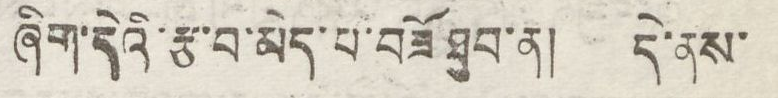ཞིག་དེའི་རྩ་བ་མེད་པ་བཟོ ཐུབ་ན། དེ་ནས་
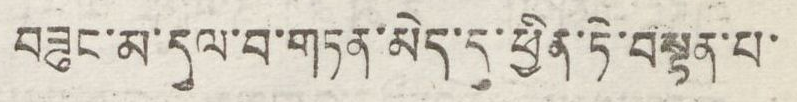བཟུང་མ་དུལ་བ་གཏན་མེད་དུ་ཕྱིན་ཏེ་བསྟན་པ་
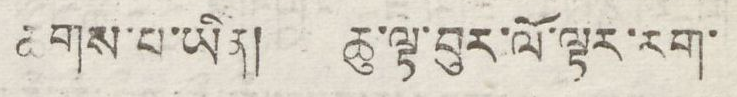ཆགས་པ་ཡིན། ཆུ་ལྟ་བུར་ལོ་ལྟར་རག་
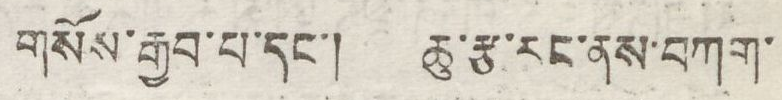གསོས་རྒྱབ་པ་དང་། ཆུ་རྩ་རང་ནས་བཀག་
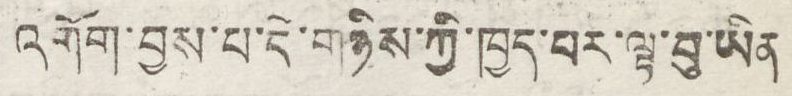འགོག་བྱས་པ་དེ་གཉིས་ཀྱི་ཁྱད་པར་ལྟ་བུ་ཡིན།
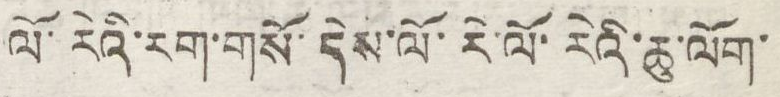ལོ་རེའི་རག་གསོ་དེས་ལོ་རེ་ལོ་རེའི་ཆུ་ལོག་
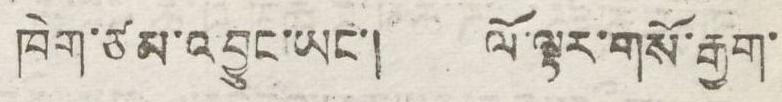ཁེག་ཙམ་འབྱུང་ཡང་། ལོ་ལྟར་གསོ་རྒྱག་
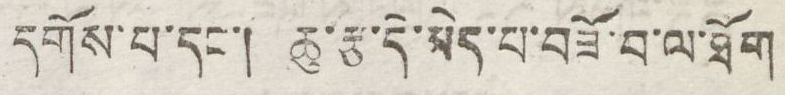དགོས་པ་དང་། ཆུ་རྩ་དེ་མེད་པ་བཟོ་བ་ལ་ཐོག
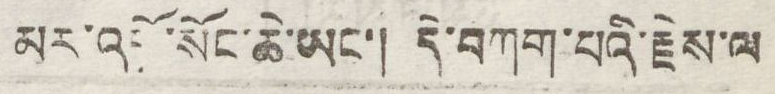མར་འངོ་སོང་ཆེ་ཡང་། དེ་བཀག་པའི་རྗེས་ལ
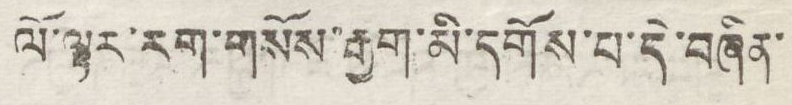ལོ་ལྟར་རག་གསོས་རྒྱག་མི་དགོས་པ་དེ་བཞིན་
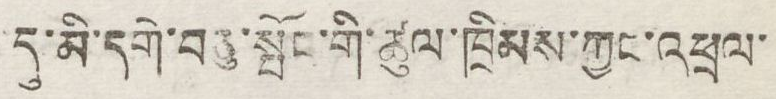དུ་མི་དགེ་བཅུ་སྤོང་གི་ཚུལ་ཁྲིམས་ཀྱང་འཕྲལ་
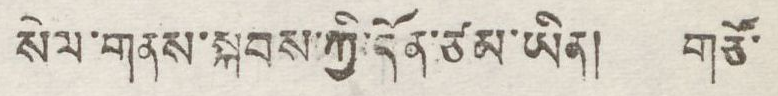སེལ་གནས་སྐབས་ཀྱི་དོན་ཙམ་ཡིན། གཙོ་
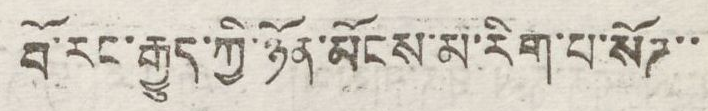བོ་རང་རྒྱུད་ཀྱི་ཉོན་མོངས་མ་རིག་པ་སོཌ་་
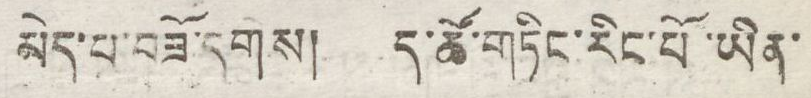མེད་པ་བཟོ་དགེས། ད་ཚོ་གཏིང་རིང་པོ་ཡིན་
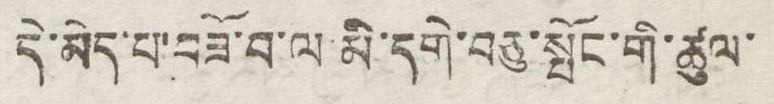དེ་མེད་པ་བཟོ་བ་ལ མི་དགེ་བཅུ་སྤོང་གི་ཚུལ་
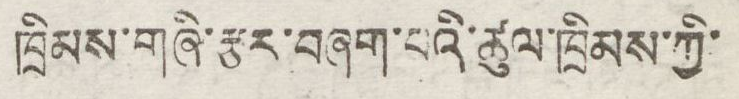ཁྲིམས་གཞི་རྩར་བཞག་པའི་ཚུལ་ཁྲིམས་ཀྱི་
